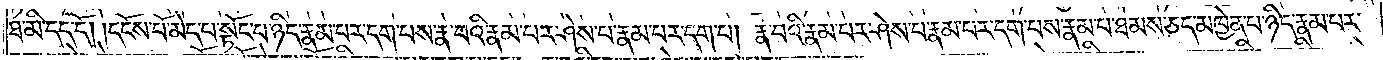ཐ་མི་དད་དོ། །དངོས་པོ་མེད་པ་སྟོང་པ་ཉིད་རྣམ་པར་དག་པས་རྣ་བའི་རྣམ་པར་ཤེས་པ་རྣམ་པར་དག་པ། རྣ་བའི་རྣམ་པར་ཤེས་པ་རྣམ་པར་དག་པས་རྣམ་པ་ཐམས་ཅད་མཁྱེན་པ་ཉིད་རྣམ་པར་
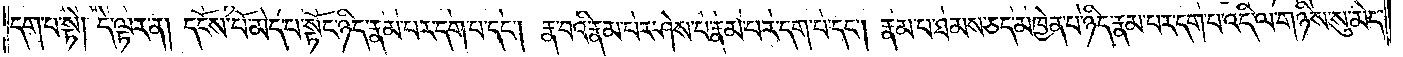དག་པ་སྟེ། དེ་ལྟར་ན། དངོས་པོ་མེད་པ་སྟོང་པ་ཉིད་རྣམ་པར་དག་པ་དང༌། རྣ་བའི་རྣམ་པར་ཤེས་པ་རྣམ་པར་དག་པ་དང༌། རྣམ་པ་ཐམས་ཅད་མཁྱེན་པ་ཉིད་རྣམ་པར་དག་པ་འདི་ལ་གཉིས་སུ་མེད་
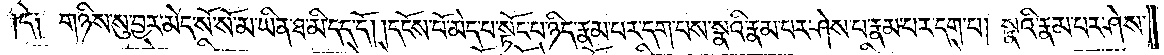དེ། གཉིས་སུ་བྱར་མེད་སོ་སོ་མ་ཡིན་ཐ་མི་དད་དོ། །དངོས་པོ་མེད་པ་སྟོང་པ་ཉིད་རྣམ་པར་དག་པས་སྣའི་རྣམ་པར་ཤེས་པ་རྣམ་པར་དག་པ། སྣའི་རྣམ་པར་ཤེས་
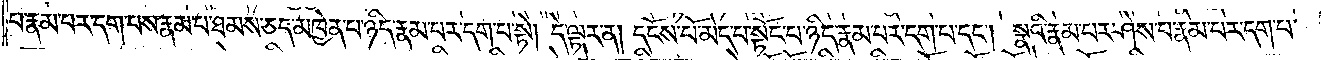པ་རྣམ་པར་དག་པས་རྣམ་པ་ཐམས་ཅད་མཁྱེན་པ་ཉིད་རྣམ་པར་དག་པ་སྟེ། དེ་ལྟར་ན། དངོས་པོ་མེད་པ་སྟོང་པ་ཉིད་རྣམ་པར་དག་པ་དང༌། སྣའི་རྣམ་པར་ཤེས་པ་རྣམ་པར་དག་པ་
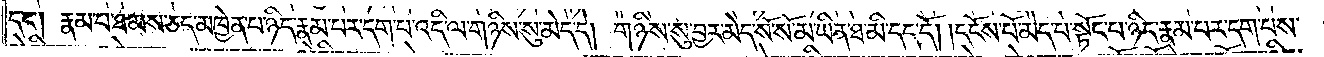དང༌། རྣམ་པ་ཐམས་ཅད་མཁྱེན་པ་ཉིད་རྣམ་པར་དག་པ་འདི་ལ་གཉིས་སུ་མེད་དེ། གཉིས་སུ་བྱར་མེད་སོ་སོ་མ་ཡིན་ཐ་མི་དད་དོ། །དངོས་པོ་མེད་པ་སྟོང་པ་ཉིད་རྣམ་པར་དག་པས་
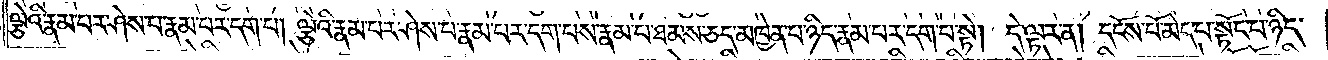ལྕེའི་རྣམ་པར་ཤེས་པ་རྣམ་པར་དག་པ། ལྕེའི་རྣམ་པར་ཤེས་པ་རྣམ་པར་དག་པས་རྣམ་པ་ཐམས་ཅད་མཁྱེན་པ་ཉིད་རྣམ་པར་དག་པ་སྟེ། དེ་ལྟར་ན། དངོས་པོ་མེད་པ་སྟོང་པ་ཉིད་
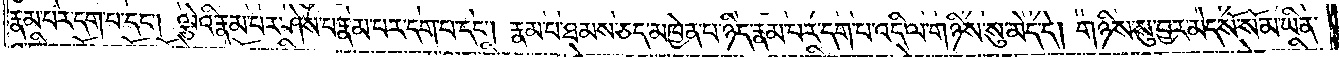རྣམ་པར་དག་པ་དང༌། ལྕེའི་རྣམ་པར་ཤེས་པ་རྣམ་པར་དག་པ་དང༌། རྣམ་པ་ཐམས་ཅད་མཁྱེན་པ་ཉིད་རྣམ་པར་དག་པ་འདི་ལ་གཉིས་སུ་མེད་དེ། གཉིས་སུ་བྱར་མེད་སོ་སོ་མ་ཡིན་
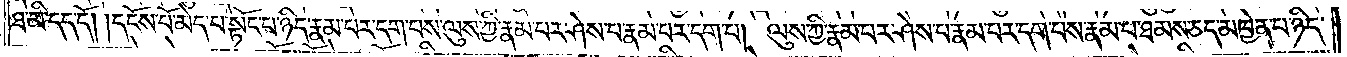ཐ་མི་དད་དོ། །དངོས་པོ་མེད་པ་སྟོང་པ་ཉིད་རྣམ་པར་དག་པས་ལུས་ཀྱི་རྣམ་པར་ཤེས་པ་རྣམ་པར་དག་པ། ལུས་ཀྱི་རྣམ་པར་ཤེས་པ་རྣམ་པར་དག་པས་རྣམ་པ་ཐམས་ཅད་མཁྱེན་པ་ཉིད་
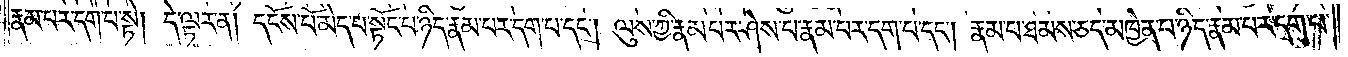རྣམ་པར་དག་པ་སྟེ། དེ་ལྟར་ན། དངོས་པོ་མེད་པ་སྟོང་པ་ཉིད་རྣམ་པར་དག་པ་དང༌། ལུས་ཀྱི་རྣམ་པར་ཤེས་པ་རྣམ་པར་དག་པ་དང༌། རྣམ་པ་ཐམས་ཅད་མཁྱེན་པ་ཉིད་རྣམ་པར་དག་པ་
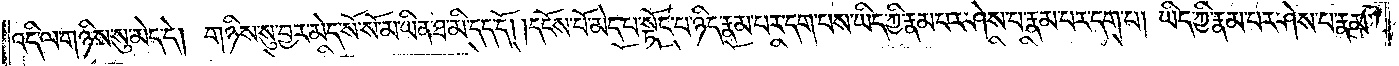འདི་ལ་གཉིས་སུ་མེད་དེ། གཉིས་སུ་བྱར་མེད་སོ་སོ་མ་ཡིན་ཐ་མི་དད་དོ། །དངོས་པོ་མེད་པ་སྟོང་པ་ཉིད་རྣམ་པར་དག་པས་ཡིད་ཀྱི་རྣམ་པར་ཤེས་པ་རྣམ་པར་དག་པ། ཡིད་ཀྱི་རྣམ་པར་ཤེས་པ་རྣམ་
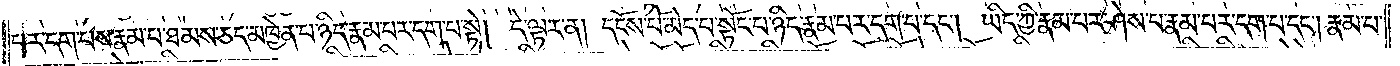པར་དག་པས་རྣམ་པ་ཐམས་ཅད་མཁྱེན་པ་ཉིད་རྣམ་པར་དག་པ་སྟེ། དེ་ལྟར་ན། དངོས་པོ་མེད་པ་སྟོང་པ་ཉིད་རྣམ་པར་དག་པ་དང༌། ཡིད་ཀྱི་རྣམ་པར་ཤེས་པ་རྣམ་པར་དག་པ་དང༌། རྣམ་པ་
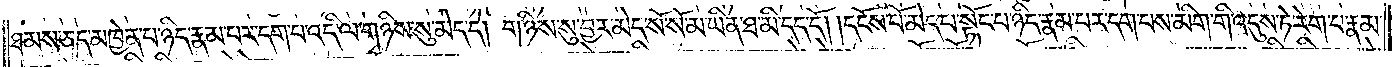ཐམས་ཅད་མཁྱེན་པ་ཉིད་རྣམ་པར་དག་པ་འདི་ལ་གཉིས་སུ་མེད་དེ། གཉིས་སུ་བྱར་མེད་སོ་སོ་མ་ཡིན་ཐ་མི་དད་དོ། །དངོས་པོ་མེད་པ་སྟོང་པ་ཉིད་རྣམ་པར་དག་པས་མིག་གི་འདུས་ཏེ་རེག་པ་རྣམ་
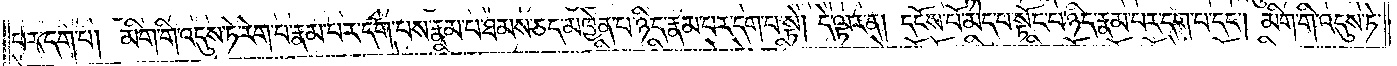པར་དག་པ། མིག་གི་འདུས་ཏེ་རེག་པ་རྣམ་པར་དག་པས་རྣམ་པ་ཐམས་ཅད་མཁྱེན་པ་ཉིད་རྣམ་པར་དག་པ་སྟེ། དེ་ལྟར་ན། དངོས་པོ་མེད་པ་སྟོང་པ་ཉིད་རྣམ་པར་དག་པ་དང༌། མིག་གི་འདུས་ཏེ་
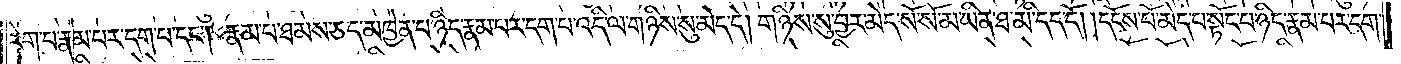རེག་པ་རྣམ་པར་དག་པ་དང༌། རྣམ་པ་ཐམས་ཅད་མཁྱེན་པ་ཉིད་རྣམ་པར་དག་པ་འདི་ལ་གཉིས་སུ་མེད་དེ། གཉིས་སུ་བྱར་མེད་སོ་སོ་མ་ཡིན་ཐ་མི་དད་དོ། །དངོས་པོ་མེད་པ་སྟོང་པ་ཉིད་རྣམ་པར་དག་
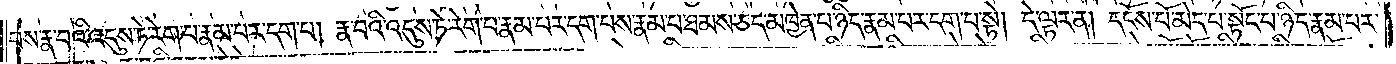པས་རྣ་བའི་འདུས་ཏེ་རེག་པ་རྣམ་པར་དག་པ། རྣ་བའི་འདུས་ཏེ་རེག་པ་རྣམ་པར་དག་པས་རྣམ་པ་ཐམས་ཅད་མཁྱེན་པ་ཉིད་རྣམ་པར་དག་པ་སྟེ། དེ་ལྟར་ན། དངོས་པོ་མེད་པ་སྟོང་པ་ཉིད་རྣམ་པར་
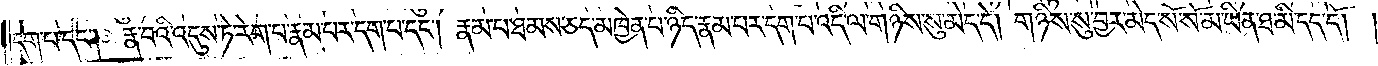དག་པ་དང༌། རྣ་བའི་འདུས་ཏེ་རེག་པ་རྣམ་པར་དག་པ་དང༌། རྣམ་པ་ཐམས་ཅད་མཁྱེན་པ་ཉིད་རྣམ་པར་དག་པ་འདི་ལ་གཉིས་སུ་མེད་དེ། གཉིས་སུ་བྱར་མེད་སོ་སོ་མ་ཡིན་ཐ་མི་དད་དོ། །
